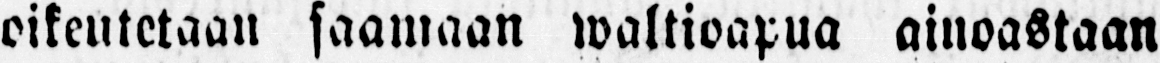oikeutetaan saamaan waltioapua ainoastaan
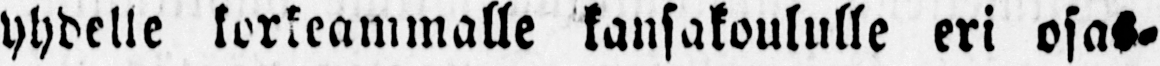yhdelle korkeammalle kansakoululle eri osas-
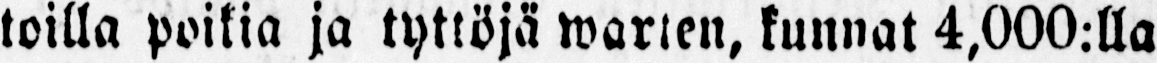toilla poikia ja tyttöjä warten, kunnat 4,000.lla
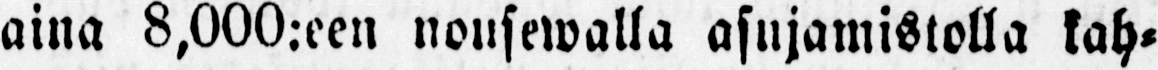aina 8,000:een nousewalla asujamistolla kah-
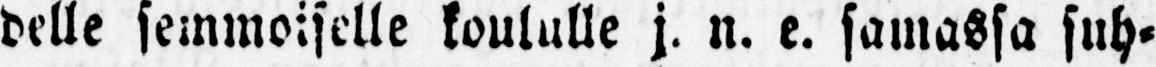delle semmoiselle koululle j. n. e. samassa suh-
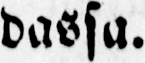dassa.
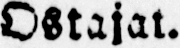Ostajat.
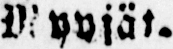Myyjät.
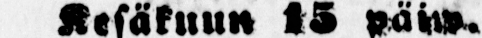Kesäkunn 15 päiw.
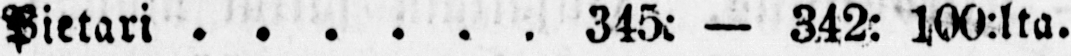Pietari 345: — 342: 100:lta.
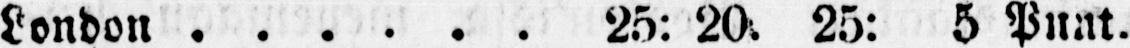London 25: 20. 25: 5 Punt.
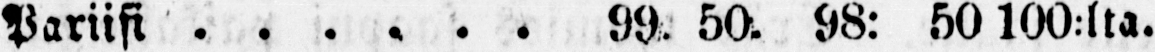Pariisi 99. 50. 98: 50 100:lta.
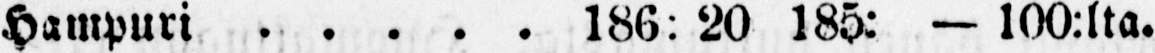Hampuri 186: 20 185: — 100:lta.
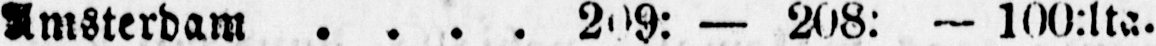Amsterdam 209: — 208: - 100:lta
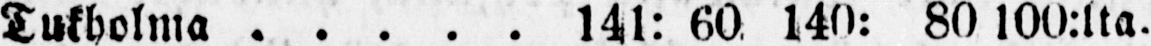Tukholma 14l: 60 140: 80 100:lta.
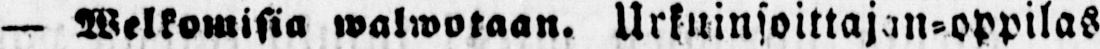— Welkomisia walwotaan. Urkuinsoittajan-oppilas
